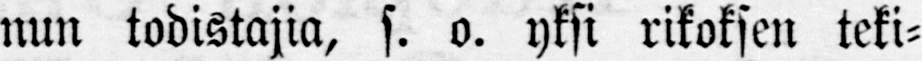nun todistajia, s. o. yksi rikoksin teki-
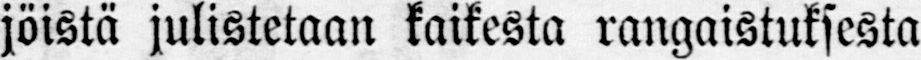jöistä julistetaan kaikesta rangaistuksesta
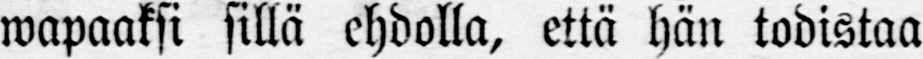wapaaksi sillä ehdolla, että hän todistaa
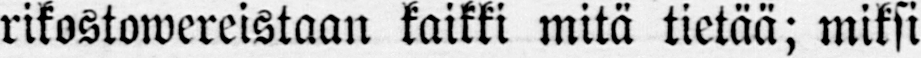rikostowereistaan kaikki mitä tietää; miksi
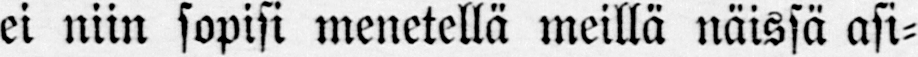ei niin sopisi menetellä meillä näissä asi-
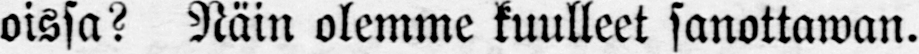oissa? Näin olemme kuulleet sanottawan.
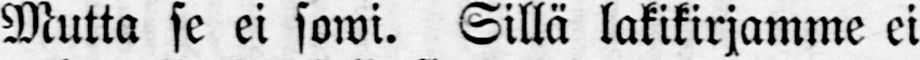Mutta se ei sowi. Sillä lakikirjamme ei
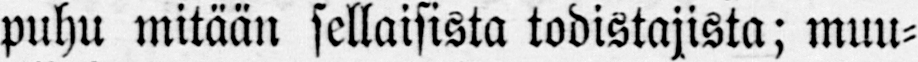puhu mitään sellaisista todistajista; muu-
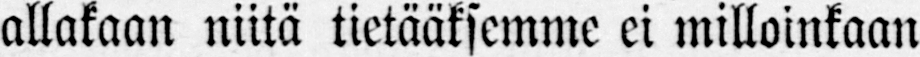allakaan niitä tietääksemme ei milloinkaan
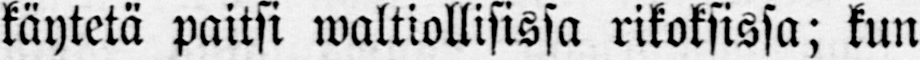käytetä paitsi waltiollisissa rikoksissa; kun
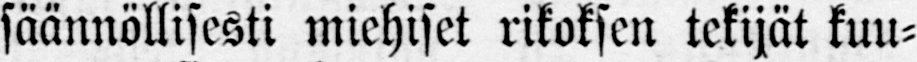säännöllisesti miehiset rikoksen tekijät kuu-
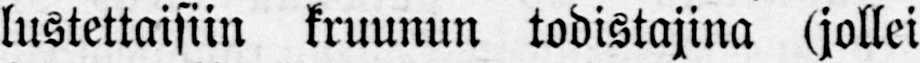lustettaisiin kruunun todistajina (jollei
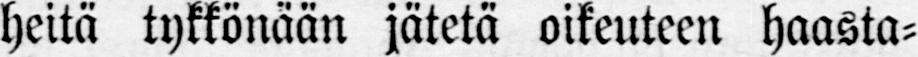heitä tykkönään jätetä oikeuteen haasta-
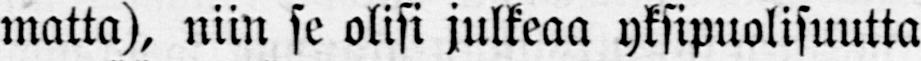matta), niin se olisi julkeaa yksipuolisuutta
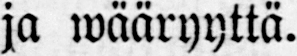ja wääryyttä.
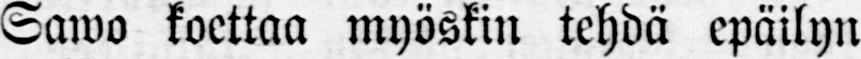Sawo koettaa myöskin tehdä epäilyn
